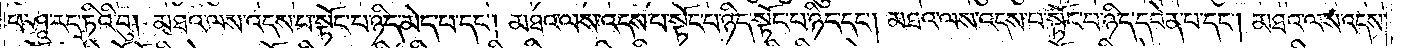པ་ཤཱ་རདྭ་ཏིའི་བུ། མཐའ་ལས་འདས་པ་སྟོང་པ་ཉིད་མེད་པ་དང༌། མཐའ་ལས་འདས་པ་སྟོང་པ་ཉིད་སྟོང་པ་ཉིད་དང༌། མཐའ་ལས་འདས་པ་སྟོང་པ་ཉིད་དབེན་པ་དང༌། མཐའ་ལས་འདས་
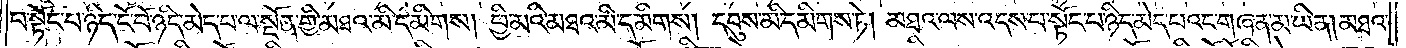པ་སྟོང་པ་ཉིད་ངོ་བོ་ཉིད་མེད་པ་ལ་སྔོན་གྱི་མཐའ་མི་དམིགས། ཕྱི་མའི་མཐའ་མི་དམིགས། དབུས་མི་དམིགས་ཏེ། མཐའ་ལས་འདས་པ་སྟོང་པ་ཉིད་མེད་པའང་གཞན་མ་ཡིན། མཐའ་
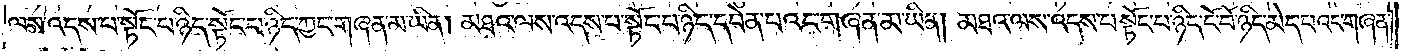ལས་འདས་པ་སྟོང་པ་ཉིད་སྟོང་པ་ཉིད་ཀྱང་གཞན་མ་ཡིན། མཐའ་ལས་འདས་པ་སྟོང་པ་ཉིད་དབེན་པའང་གཞན་མ་ཡིན། མཐའ་ལས་འདས་པ་སྟོང་པ་ཉིད་ངོ་བོ་ཉིད་མེད་པའང་གཞན་
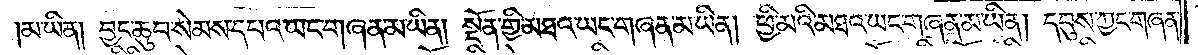མ་ཡིན། བྱང་ཆུབ་སེམས་དཔའ་ཡང་གཞན་མ་ཡིན། སྔོན་གྱི་མཐའ་ཡང་གཞན་མ་ཡིན། ཕྱི་མའི་མཐའ་ཡང་གཞན་མ་ཡིན། དབུས་ཀྱང་གཞན་
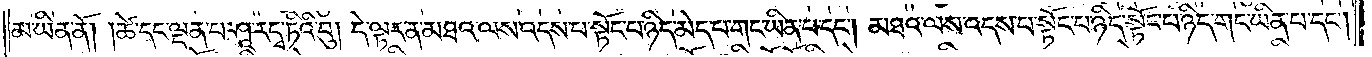མ་ཡིན་ནོ། །ཚེ་དང་ལྡན་པ་ཤཱ་ར་དྭ་ཏིའི་བུ། དེ་ལྟར་ན་མཐའ་ལས་འདས་པ་སྟོང་པ་ཉིད་མེད་པ་གང་ཡིན་པ་དང༌། མཐའ་ལས་འདས་པ་སྟོང་པ་ཉིད་སྟོང་པ་ཉིད་གང་ཡིན་པ་དང༌།
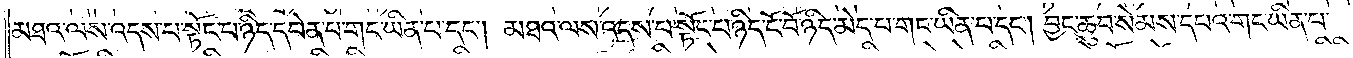མཐའ་ལས་འདས་པ་སྟོང་པ་ཉིད་དབེན་པ་གང་ཡིན་པ་དང༌། མཐའ་ལས་འདས་པ་སྟོང་པ་ཉིད་ངོ་བོ་ཉིད་མེད་པ་གང་ཡིན་པ་དང༌། བྱང་ཆུབ་སེམས་དཔའ་གང་ཡིན་པ་
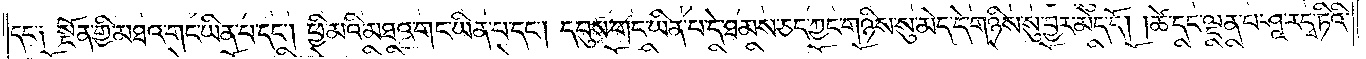དང་༑ སྔོན་གྱི་མཐའ་གང་ཡིན་པ་དང༌། ཕྱི་མའི་མཐའ་གང་ཡིན་པ་དང༌། དབུས་གང་ཡིན་པ་དེ་ཐམས་ཅད་ཀྱང་གཉིས་སུ་མེད་དེ་གཉིས་སུ་བྱར་མེད་དོ། །ཚེ་དང་ལྡན་པ་ཤཱ་རདྭ་ཏིའི་
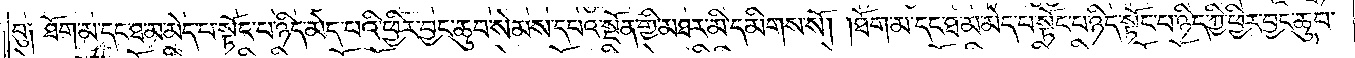བུ༑ ཐོག་མ་དང་ཐ་མ་མེད་པ་སྟོང་པ་ཉིད་མེད་པའི་ཕྱིར་བྱང་ཆུབ་སེམས་དཔའ་སྔོན་གྱི་མཐར་མི་དམིགས་སོ། །ཐོག་མ་དང་ཐ་མ་མེད་པ་སྟོང་པ་ཉིད་སྟོང་པ་ཉིད་ཀྱི་ཕྱིར་བྱང་ཆུབ་
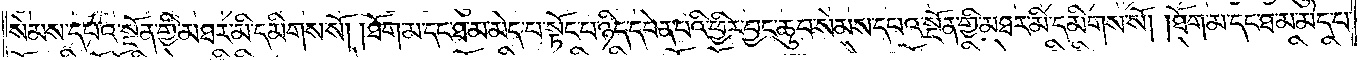སེམས་དཔའ་སྔོན་གྱི་མཐར་མི་དམིགས་སོ། །ཐོག་མ་དང་ཐ་མ་མེད་པ་སྟོང་པ་ཉིད་དབེན་པའི་ཕྱིར་བྱང་ཆུབ་སེམས་དཔའ་སྔོན་གྱི་མཐར་མི་དམིགས་སོ། །ཐོག་མ་དང་ཐ་མ་མེད་པ་
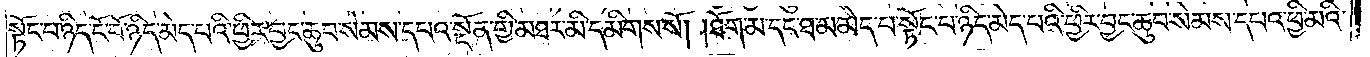སྟོང་པ་ཉིད་ངོ་བོ་ཉིད་མེད་པའི་ཕྱིར་བྱང་ཆུབ་སེམས་དཔའ་སྔོན་གྱི་མཐར་མི་དམིགས་སོ། །ཐོག་མ་དང་ཐ་མ་མེད་པ་སྟོང་པ་ཉིད་མེད་པའི་ཕྱིར་བྱང་ཆུབ་སེམས་དཔའ་ཕྱི་མའི་
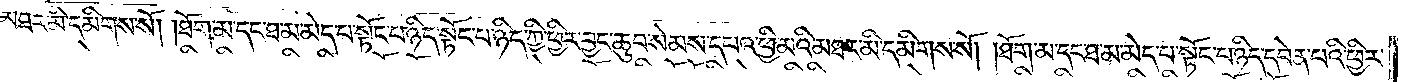མཐར་མི་དམིགས་སོ། །ཐོག་མ་དང་ཐ་མ་མེད་པ་སྟོང་པ་ཉིད་སྟོང་པ་ཉིད་ཀྱི་ཕྱིར་བྱང་ཆུབ་སེམས་དཔའ་ཕྱི་མའི་མཐར་མི་དམིགས་སོ། །ཐོག་མ་དང་ཐ་མ་མེད་པ་སྟོང་པ་ཉིད་དབེན་པའི་ཕྱིར་
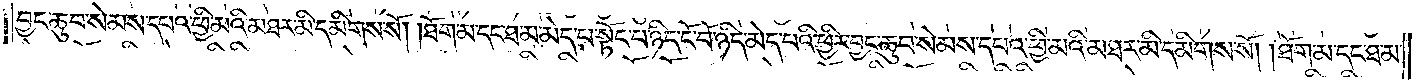བྱང་ཆུབ་སེམས་དཔའ་ཕྱི་མའི་མཐར་མི་དམིགས་སོ། །ཐོག་མ་དང་ཐ་མ་མེད་པ་སྟོང་པ་ཉིད་ངོ་བོ་ཉིད་མེད་པའི་ཕྱིར་བྱང་ཆུབ་སེམས་དཔའ་ཕྱི་མའི་མཐར་མི་དམིགས་སོ། །ཐོག་མ་དང་ཐ་མ་
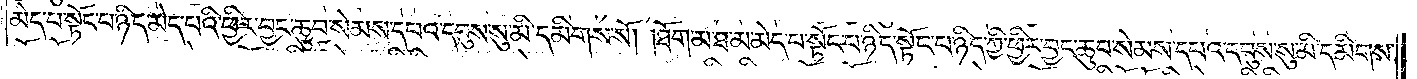མེད་པ་སྟོང་པ་ཉིད་མེད་པའི་ཕྱིར་བྱང་ཆུབ་སེམས་དཔའ་དབུས་སུ་མི་དམིགས་སོ། །ཐོག་མ་དང་ཐ་མ་མེད་པ་སྟོང་པ་ཉིད་སྟོང་པ་ཉིད་ཀྱི་ཕྱིར་བྱང་ཆུབ་སེམས་དཔའ་དབུས་སུ་མི་དམིགས་
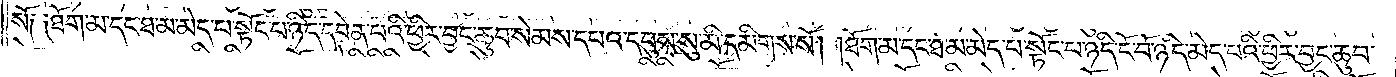སོ༑ ༑ཐོག་མ་དང་ཐ་མ་མེད་པ་སྟོང་པ་ཉིད་དབེན་པའི་ཕྱིར་བྱང་ཆུབ་སེམས་དཔའ་དབུས་སུ་མི་དམིགས་སོ། །ཐོག་མ་དང་ཐ་མ་མེད་པ་སྟོང་པ་ཉིད་ངོ་བོ་ཉིད་མེད་པའི་ཕྱིར་བྱང་ཆུབ་
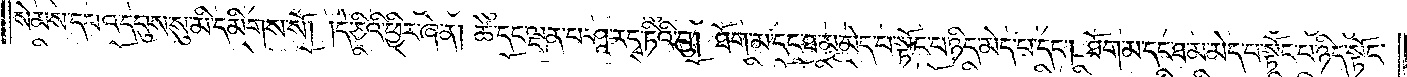སེམས་དཔའ་དབུས་སུ་མི་དམིགས་སོ། །དེ་ཅིའི་ཕྱིར་ཞེ་ན། །ཚེ་དང་ལྡན་པར་ཤཱ་རདྭ་ཏིའི་བུ། །ཐོག་མ་དང་ཐ་མ་མེད་པ་སྟོང་པ་ཉིད་མེད་པ་དང༌། ཐོག་མ་དང་ཐ་མ་མེད་པ་སྟོང་པ་ཉིད་སྟོང་
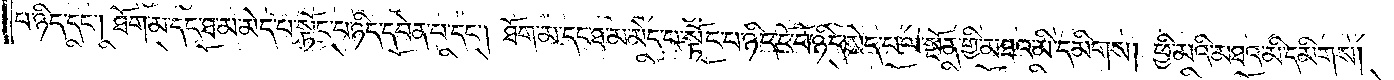པ་ཉིད་དང༌། ཐོག་མ་དང་ཐ་མ་མེད་པ་སྟོང་པ་ཉིད་དབེན་པ་དང༌། ཐོག་མ་དང་ཐ་མ་མེད་པ་སྟོང་པ་ཉིད་ངོ་བོ་ཉིད་མེད་པ་ལ་སྔོན་གྱི་མཐའ་མི་དམིགས། ཕྱི་མའི་མཐའ་མི་དམིགས།
